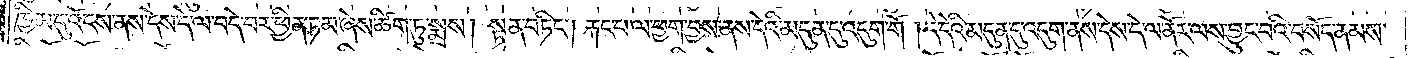ཁྱིམ་དུ་འོངས་ནས་དེས་དེ་ལ་བདེ་བར་ཕྱིན་ཏམ་ཞེས་ཚིག་ཏུ་སྨྲས། སྟན་བཏིང༌། རྐང་པ་ལ་ཕྱག་བྱས་ནས་དེའི་མདུན་དུ་འདུག་གོ །དེ་དེའི་མདུན་དུ་འདུག་ནས་དེས་དེ་ལ་ནོར་ལས་བྱུང་བའི་བསོད་ནམས་
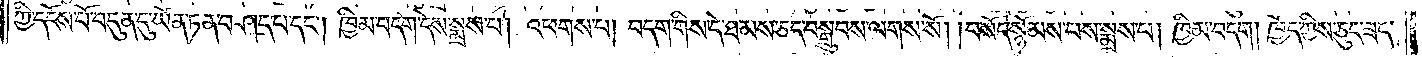ཀྱི་དངོས་པོ་བདུན་དུ་ཡོན་ཏན་བཤད་པ་དང༌། ཁྱིམ་བདག་དེས་སྨྲས་པ། འཕགས་པ། བདག་གིས་དེ་ཐམས་ཅད་བསྒྲུབས་ལགས་སོ། །བསོད་སྙོམས་པས་སྨྲས་པ། ཁྱིམ་བདག །ཁྱོད་ཀྱིས་ཅུང་ཟད་
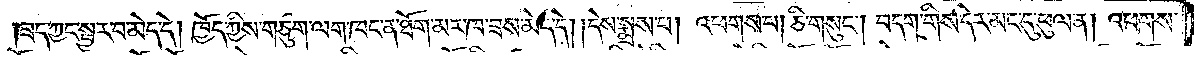ཟད་ཀྱང་སྦྱར་བ་མེད་དེ། ཁྱོད་ཀྱིས་གཙུག་ལག་ཁང་ན་ཐོག་མར་ཁ་ཟས་མེད་དེ། །དེས་སྨྲས་པ། འཕགས་པ། ཅི་གསུང༌། བདག་གིས་དེར་མང་དུ་ཕུལ་ན། འཕགས་
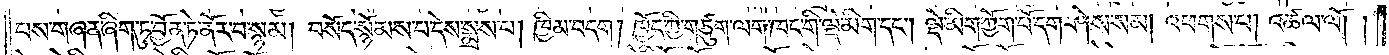པས་གཞན་ཞིག་ཏུ་བྱོན་ཏེ་ནོར་བ་སྙམ། བསོད་སྙོམས་པ་དེས་སྨྲས་པ། ཁྱིམ་བདག། ཁྱོད་ཀྱི་གཙུག་ལག་ཁང་གི་ལྡེ་མིག་དང༌། ལྡེ་མིག་ཀྱོག་པོ་དག་ཤེས་སམ། འཕགས་པ། འཚལ་ལོ། །
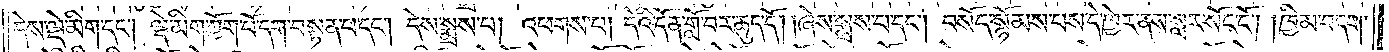དེས་ལྡེ་མིག་དང༌། ལྡེ་མིག་ཀྱོག་པོ་དག་བསྟན་པ་དང༌། དེས་སྨྲས་པ། འཕགས་པ། དེའི་དོན་གློ་བར་ཆུད་དོ། །ཞེས་སྨྲས་པ་དང༌། བསོད་སྙོམས་པས་དེ་ཁྱེར་ནས་སླར་སོང་ངོ༌། །ཁྱིམ་བདག་
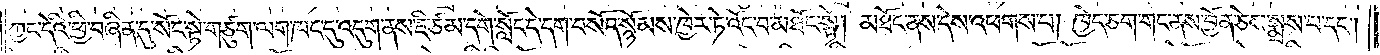ཀྱང་དེའི་ཕྱི་བཞིན་དུ་སོང་སྟེ་གཙུག་ལག་ཁང་དུ་འདུག་ནས་ཇི་ཙམ་དགེ་སློང་དེ་དག་བསོད་སྙོམས་ཁྱེར་ཏེ་འོང་བ་མཐོང་སྟེ། མཐོང་ནས་དེས་འཕགས་པ། ཁྱེད་ཅག་གང་ནས་བྱོན་ཅེས་སྨྲས་པ་དང་
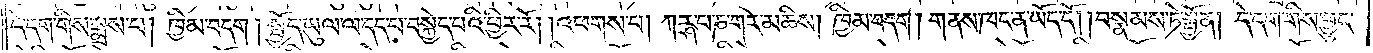དེ་དག་གིས་སྨྲས་པ། ཁྱིམ་བདག །སྤྱོད་ཡུལ་ལ་དད་པ་བསྐྱེད་པའི་ཕྱིར་རོ། །འཕགས་པ། ཀཪྴ་པ་ཎ་གར་མཆིས། ཁྱིམ་བདག །གནས་ཁང་ན་ཡོད་དོ། །བསྣམས་ཏེ་སྤྱོན། དེ་དག་གིས་ཕྱུང་
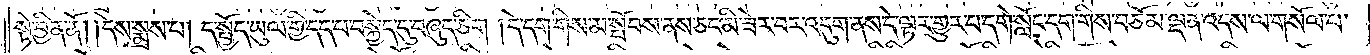སྟེ་བྱིན་ནོ། །དེས་སྨྲས་པ། ད་སྤྱོད་ཡུལ་གྱི་དད་པ་བསྐྱེད་དུ་བཞུད་ཅིག །དེ་དག་གིས་མ་སྤོབས་ནས་ཅང་མི་ཟེར་བར་འདུག་ནས་དེ་ལྟར་གྱུར་པ་དགེ་སློང་དག་གིས་བཅོམ་ལྡན་འདས་ལ་གསོལ་པ་
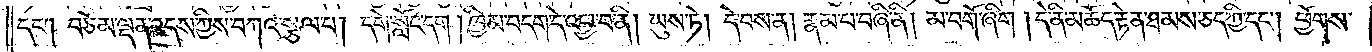དང༌། བཅོམ་ལྡན་འདས་ཀྱིས་བཀའ་སྩལ་པ། དགེ་སློང་དག །ཁྱིམ་བདག་དེ་འཕྱ་བ་ནི། ཡུས་ཏེ། དེ་བས་ན། རྣམ་པ་བཞི་ནི། མ་བགོ་ཞིག །དེ་ནི་མཆོད་རྟེན་ཐམས་ཅད་ཀྱི་དང༌། ཕྱོགས་
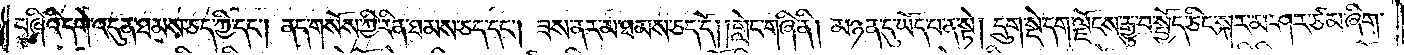བཞིའི་དགེ་འདུན་ཐམས་ཅད་ཀྱི་དང༌། ནད་གསོས་ཀྱི་རིན་ཐམས་ཅད་དང༌། ཟས་ནར་མ་ཐམས་ཅད་དོ། །གླེང་གཞི་ནི། མཉན་དུ་ཡོད་པ་ན་སྟེ། དྲུག་སྡེ་དག་ལྗོངས་རྒྱུ་བ་སྤྱོད་ཅིང་སྐར་མ་ཤར་ཙམ་ཞིག་
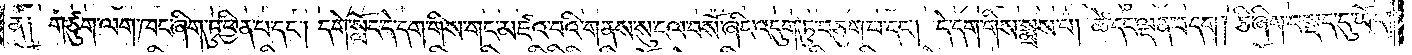ན༑ གཙུག་ལག་ཁང་ཞིག་ཏུ་ཕྱིན་པ་དང༌། དགེ་སློང་དེ་དག་གིས་གང་མཛའ་བའི་གནས་སུ་ངལ་བསོ་ཞིང་འདུག་ཏུ་བཅུག་པ་དང༌། དེ་དག་གིས་སྨྲས་པ། ཚེ་དང་ལྡན་པ་དག །ཅི་ཞིག་བསྡད་དུ་ཡོད་
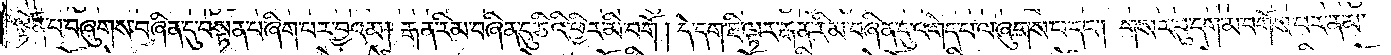སྟོན་པ་བཞུགས་བཞིན་དུ་བསྟན་པ་ཞིག་པར་བྱའམ། རྒན་རིམ་བཞིན་དུ་ཅིའི་ཕྱིར་མི་བགོ། དེ་དག་ཇི་ལྟར་རྒན་རིམ་བཞིན་དུ་འགེད་པ་ལ་ཞུགས་པ་དང༌། གསར་བུ་དག་མ་བགོས་པར་ནམ་
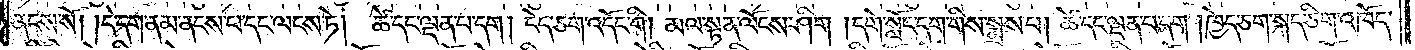ནངས་སོ། །དེ་དག་ནམ་ནངས་པ་དང་ལངས་ཏེ། ཚེ་དང་ལྡན་པ་དག །ངེད་ཅག་འདོང་གི། མལ་སྟན་ལོངས་ཤིག །དགེ་སློང་དག་གིས་སྨྲས་པ། ཚེ་དང་ལྡན་པ་དག །ཁྱེད་ཅག་སྐད་ཅིག་འཁོད་
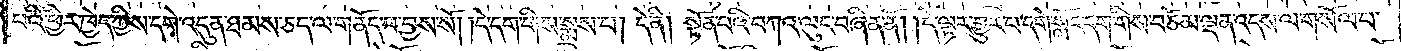པའི་ཕྱིར་ཁྱེད་ཀྱིས་དགེ་འདུན་ཐམས་ཅད་ལ་གནོད་པ་བྱས་སོ། །དེ་དག་གིས་སྨྲས་པ། དེ་ནི། སྟོན་པའི་བཀའ་ལུང་བཞིན་ནོ། །དེ་ལྟར་གྱུར་པ་དགེ་སློང་དག་གིས་བཅོམ་ལྡན་འདས་ལ་གསོལ་པ་
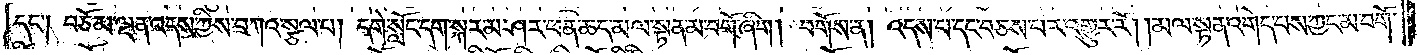དང་༑ བཅོམ་ལྡན་འདས་ཀྱིས་བཀའ་སྩལ་པ། དགེ་སློང་དག་སྐར་མ་ཤར་ཕན་ཆད་མལ་སྟན་མ་བགོ་ཞིག །བགོས་ན། འདས་པ་དང་བཅས་པར་འགྱུར་རོ། །མལ་སྟན་འགེད་པས་ཀྱང་མ་བགོ་
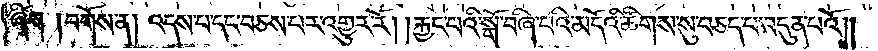ཞིག །བགོས་ན། འདས་པ་དང་བཅས་པར་འགྱུར་རོ། །རྐྱང་པའི་སྒོ་བཞི་པའི་མདོའི་ཚིགས་སུ་བཅད་པ་བདུན་པའོ། །
